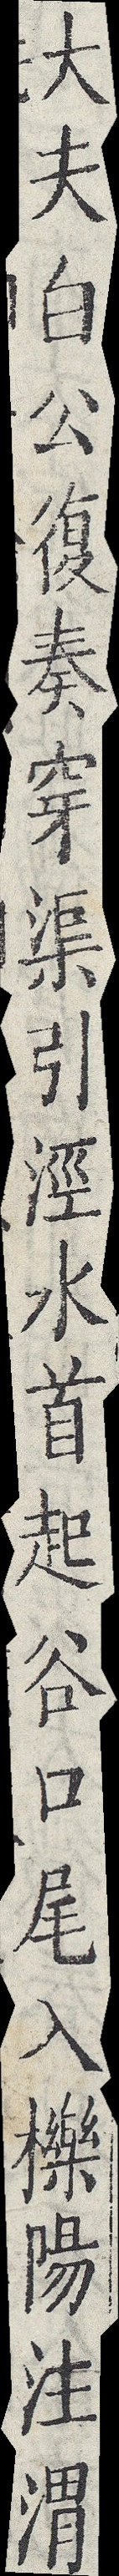大夫白公復奏穿渠引涇水首起谷口尾入櫟陽注渭
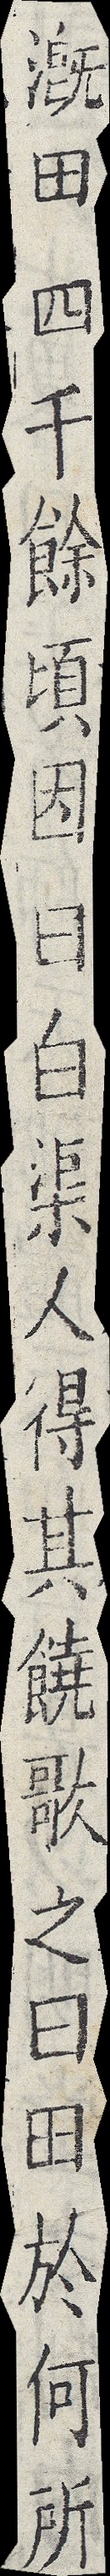溉田四千餘頃因曰白渠人得其饒歌之曰田於何所
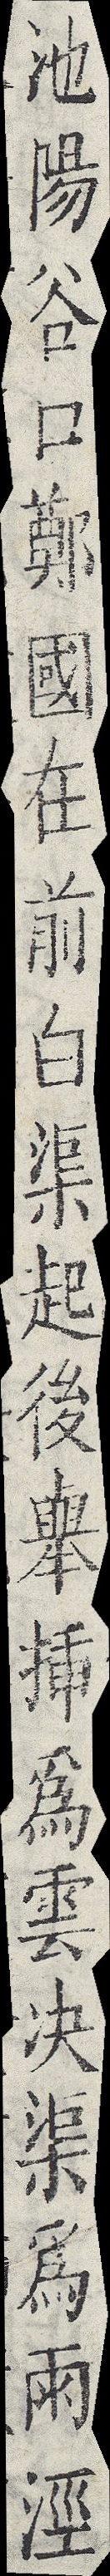池陽谷口鄭國在前白渠起後舉插為雲決渠為雨涇
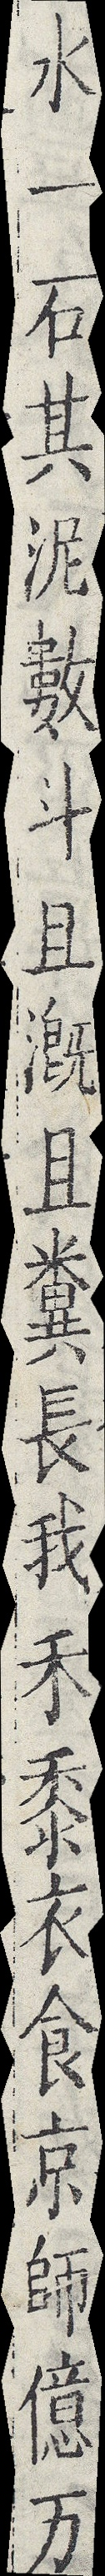水一石其泥數斗且溉且糞長我禾黍衣食京師億萬
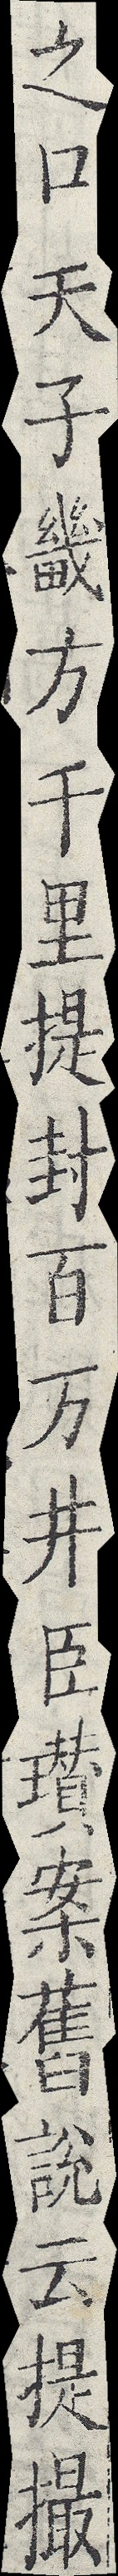之口天子畿方千里提封百萬井臣瓚案舊說云提撮
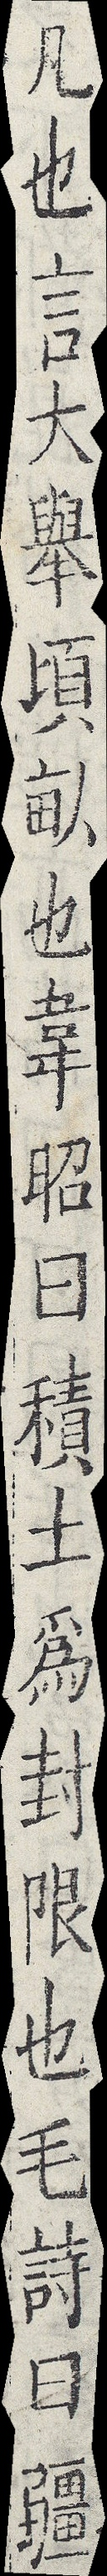凡也言大舉頃畝也韋昭曰積土為封限也毛詩曰疆
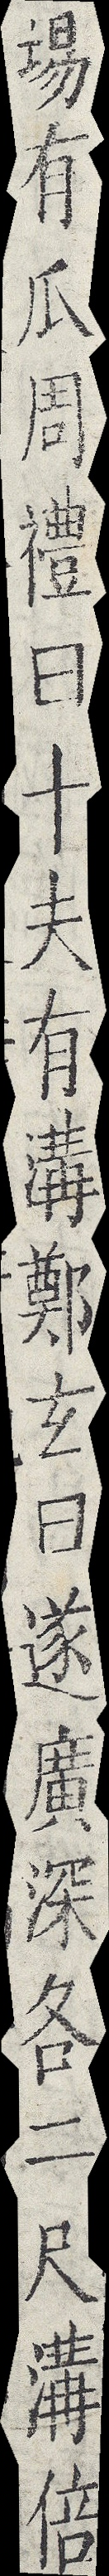埸有瓜周禮曰十夫有溝鄭玄曰遂廣深各二尺溝倍
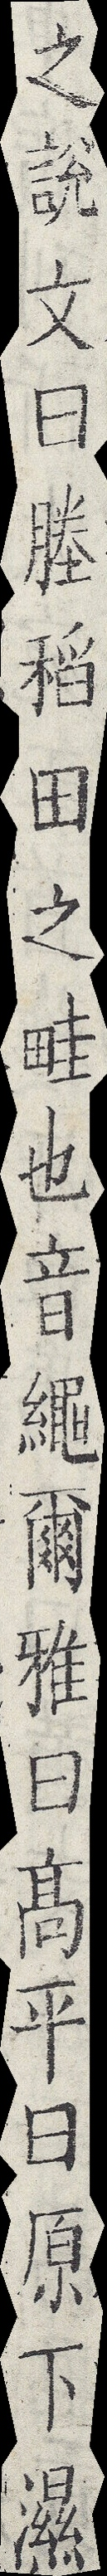之說文曰塍稻田之畦也音繩爾雅曰高平曰原下濕
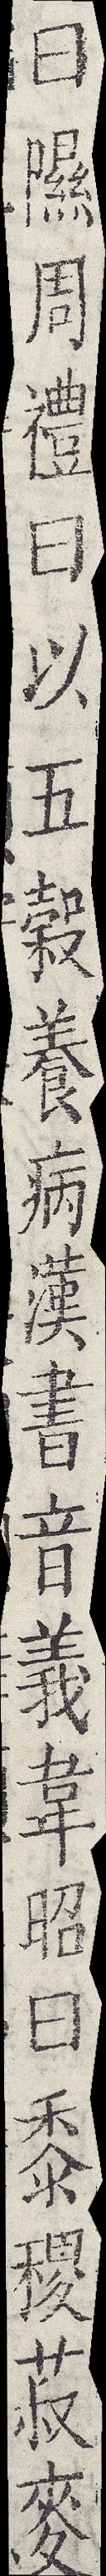曰隰周禮曰以五穀養病漢書音義韋昭曰黍稷菽麥
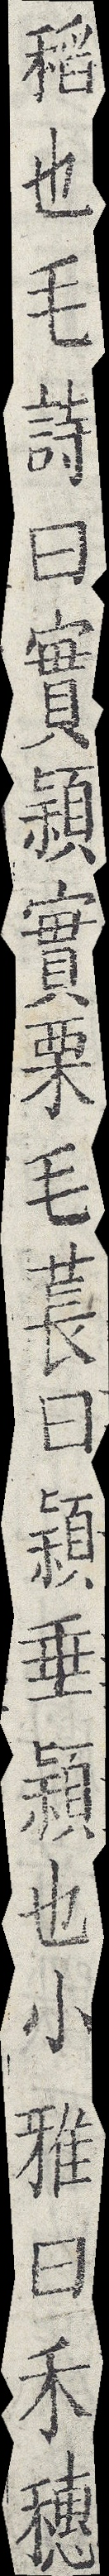稻也毛詩曰實穎實栗毛萇曰穎垂穎也小雅曰禾穗
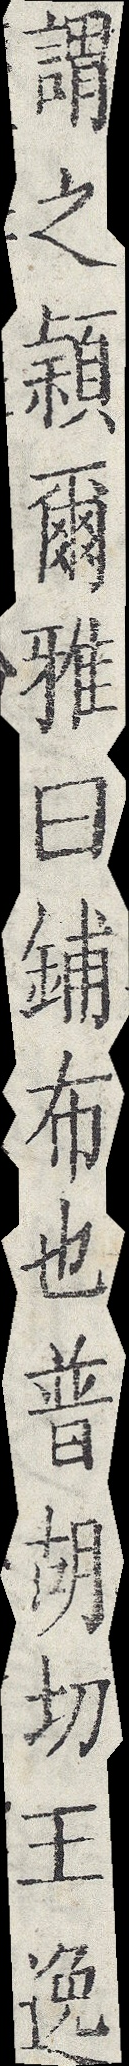謂之穎爾雅曰鋪布也普胡切王逸
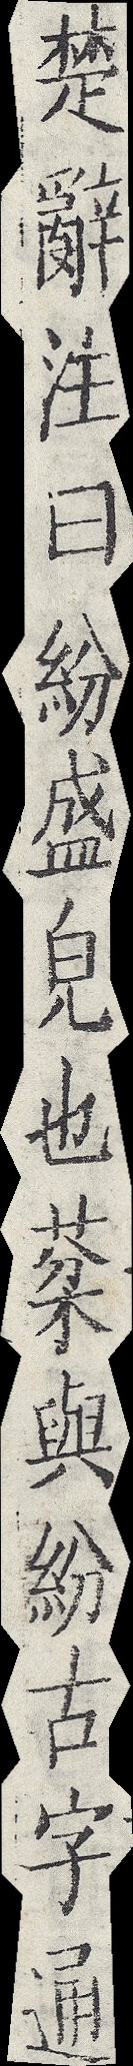楚辭注曰紛盛貌也棻與紛古字通
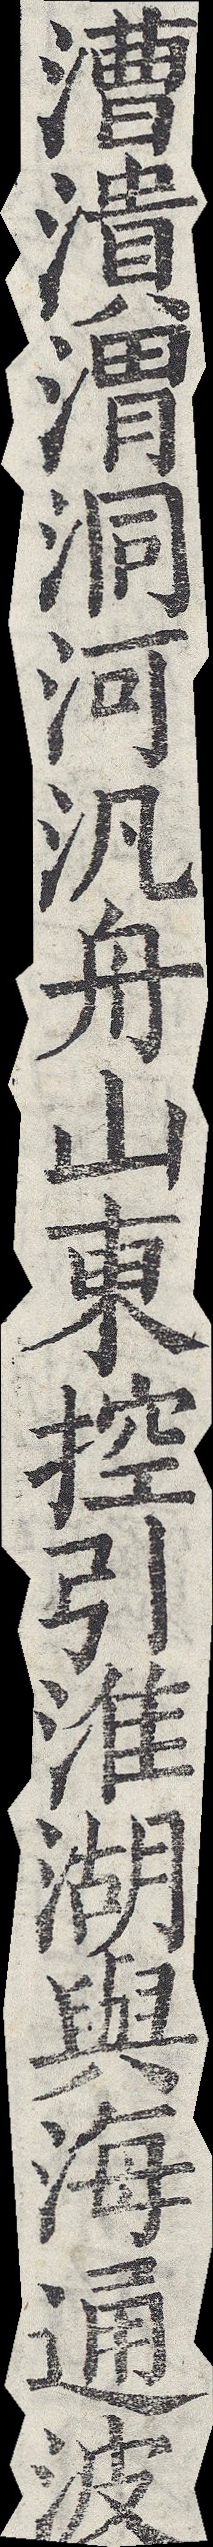漕潰渭洞河汎舟山東控引淮湖與海通波
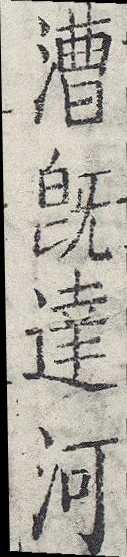漕既達河
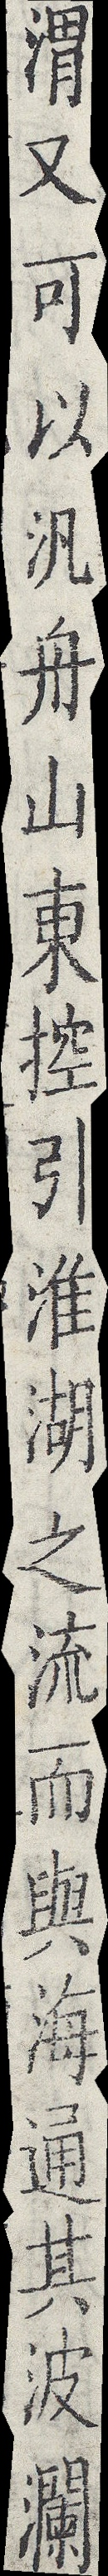渭又可以汎舟山東控引淮湖之流而與海通其波瀾
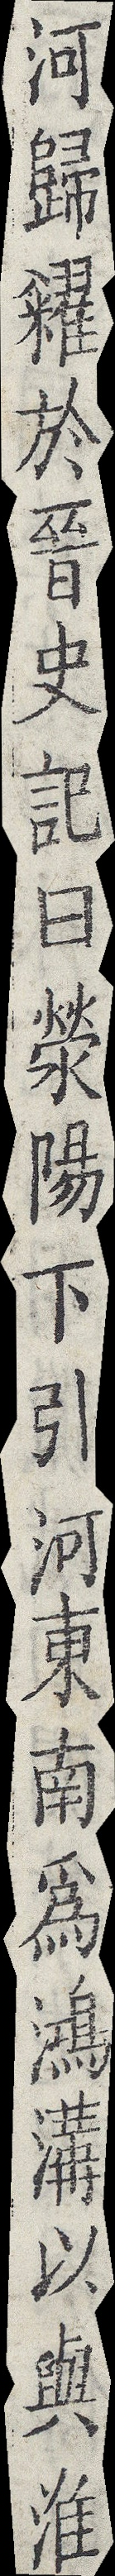河歸糴於晉史記曰滎陽下引河東南為鴻溝以與淮
